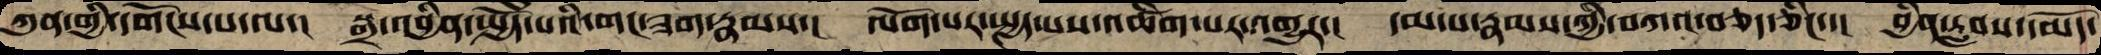ཀུན་གྱི་དགོངས་པ་ལ་།   སྒྲ་འབྱིན་སྤྱོད་པའི་གང་ཟག་རྣམས་།  ལོག་པར་སྤྱད་པས་འཚིག་པར་འགྱུར་།  དམ་པ་རྣམས་ཀྱི་བཀའ་བཅད་ཅིང་་།  བྱིན་རླབས་དམོད་
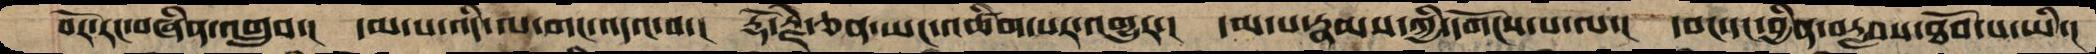བོར་རང་བཞིན་འགྲུབ་།  དམ་པ་འདི་ལ་གང་འདའ་བ་།  རྡོ་རྗེ་ཅན་ཡང་འཚིག་པར་འགྱུར་།  དམ་པ་རྣམས་ཀྱི་དགོངས་པ་ལ་།  དབང་དང་བྱིན་བརླབས་ཐོབ་པ་ཡི་།
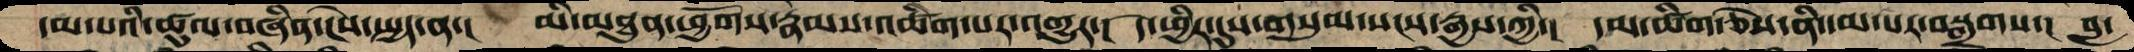དམ་པའི་ཚུལ་བཞིན་ངེས་སྤྱད་ན་།  མི་མཐུན་ཕྱོགས་རྣམས་འཚིག་པར་འགྱུར་།  དེ་ཕྱིར་དུས་གསུམ་སངས་རྒྱས་ཀྱི་།  དམ་ཚིག་ཅེས་ནི་དམ་པར་བསྒྲགས་།  བླ་
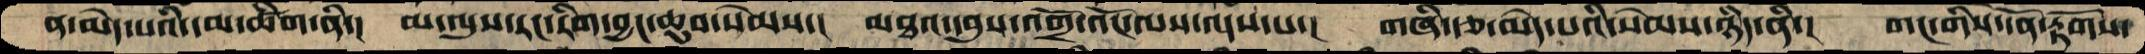ན་མེད་པའི་དམ་ཚིག་ནི་།  མ་ལུས་རང་རིག་བྱང་ཆུབ་སེམས་།  མཐའ་དབུས་འགྲོ་འོང་ལས་འདས་པ་།  གཞི་རྩ་མེད་པའི་སེམས་ཉིད་ནི་།  གང་གིས་དོན་རྟོགས་
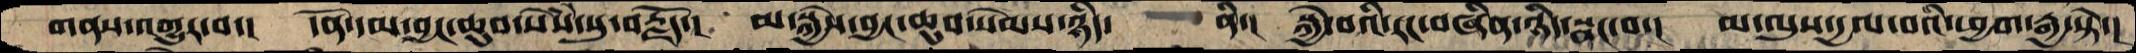གནས་འགྱུར་བ་།  དོན་དམ་བྱང་ཆུབ་སེཾས་སུ་བརྗོད་།  མ་སྐྱེས་བྱང་ཆུབ་སེམས་ཉིད་  ནི་།  སྐྱེ་བའི་རང་བཞིན་ཉིད་སྣང་བ་།  མ་ལུས་དྱལ་བའི་ཕྱག་རྒྱ་སྟེ་།
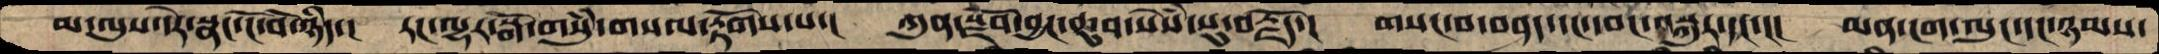མ་ལུས་དེར་སྣང་ངོ་བོ་ཉིད་།  རང་ལྷར་སྒོ་གསུཾ་གསལ་རྟོགས་པ་།  ཀུན་སྫོབ་བྱང་ཆུབ་སེཾས་སུ་བརྗོད་།  གསང་བ་བཤད་དང་དབང་བསྐུར་དང་་།  མན་ངག་ལུང་དང་ཉམས་
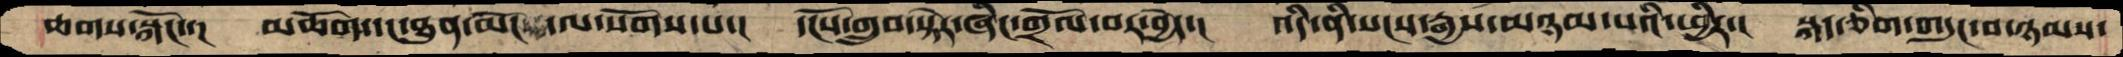ཆགས་སྐོང་་།  མཆོག་དང་ཐུན་མོང་ལ་སོགས་པ་།  དངོས་གྲུབ་སྟེར་ཞིང་གྲོལ་བར་བྱེད་།  འདི་ནི་སངས་རྒྱས་མཉམ་པའི་ཕྱིར་།  སྐད་ཅིག་གདུང་བ་ཉམས་
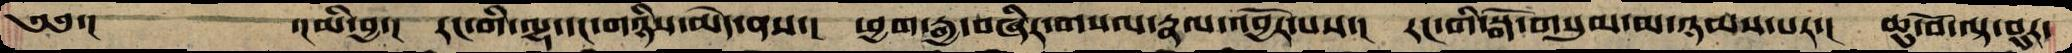༄༅་།        ་།མི་བྱ་།  རང་གི་ལྷ་དང་གཉིས་མེད་ནས་།  ཕྱག་རྒྱ་བཞིར་གསལ་རྣལ་འབྱོར་པས་།  རང་གི་སྒོ་གསུམ་མ་ཉམས་པར་།  ཆུ་བོ་ལྟ་བུར་
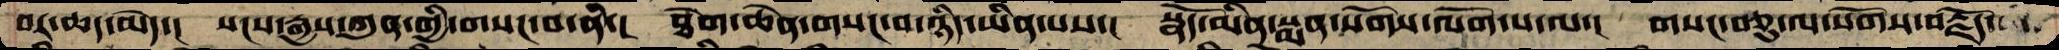བར་ཆད་མེད་།  སངས་རྒྱས་ཀུན་གྱི་གསང་བ་ནི་།  ཐེག་ཆེན་གསང་བ་ཉིད་ཡིན་པས་།  སྣོད་མིན་སྨན་སོགས་ལོག་པ་ལ་།  གསང་བཅུ་ལ་སོགས་བརྗོད་
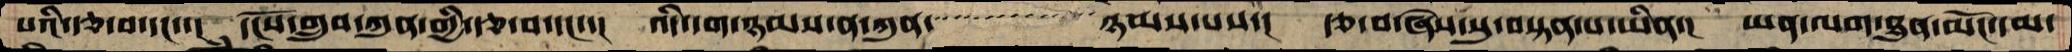པའི་རྩ་བ་དང་་།   དངོས་གྲུབ་ཀུན་གྱི་རྩ་བ་དང་་།  འདི་དག་ཉམས་ན་ཀུན་་་་་་་་་་་་་་ཉམས་པས་།  རྩ་བ་ཞེས་སུ་བསྟན་པ་ཡིན་།  ཡན་ལག་ཐུན་མོང་དམ་
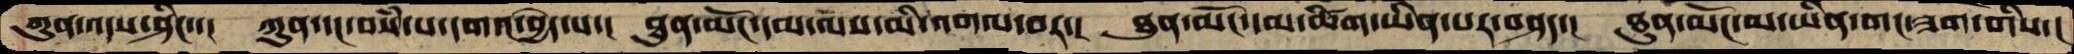ཀུན་འདས་ཤིང་་།  ཀུན་དང་བསཾ་པ་དགའ་བྱེད་པ་།  ཐུན་མོང་དམ་ལས་མི་འགལ་བར་།  ཐུན་མོང་དམ་ཚིག་ཡིན་པར་བཤད་།  ཐུན་མོང་མ་ཡིན་གང་ཟག་གིས་།
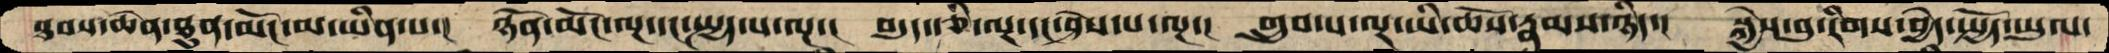ཐབས་ཆེན་ཐུན་མོང་མ་ཡིན་པ་།  ཉོན་མོང་ལྔ་དང་སྤྱད་པ་ལྔ་།  བདུད་རྩི་ལྔ་དང་ཤེས་པ་ལྔ་།  གྲུབ་པ་ལྔ་ཡི་ཆོས་རྣམས་ཉིད་།  སྐྱེས་བུ་རིགས་བྱེད་སྤྱོད་ཡུལ་
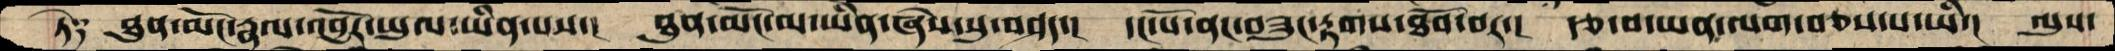ཏེ༑   ཐུན་མོང་རྣལ་འབྱོར་ཡུལ་ཡིན་པས་།  ཐུན་མོང་མ་ཡིན་ཞེས་སུ་བཤད་།  དང་པོ་ནང་བཟུང་རྟགས་ཐོབ་བར་།  རྩ་བ་ཡན་ལག་བཅས་པ་ཡི་།  ལུས་
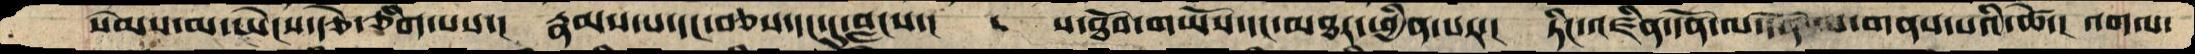སེམས་མ་ཡེངས་རྩེ་ཅིག་པས་།   རྣམས་པ་དང་བཅས་དང་དུ་བླངས་།  ས་ཐོབ་གཡོས་དང་མཐར་ཕྱིན་པར་།  ཏིང་འཛིན་དོན་ལ་གནས་པའི་ཚེ་།  འགལ་
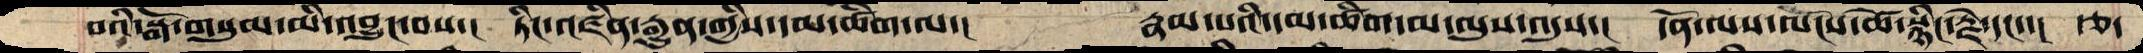བའི་སྒོ་གསུམ་མི་འབྱུང་བས་།  ཏིང་འཛིན་རྒྱུན་གྱིས་དམ་ཚིག་ལ་།     རྣམ་པའི་དམ་ཚིག་མ་ལུས་འདུས་།  དོན་ལས་ལོངས་ཚེ་སྙིང་རྗེ་དང་་།  རྩ་
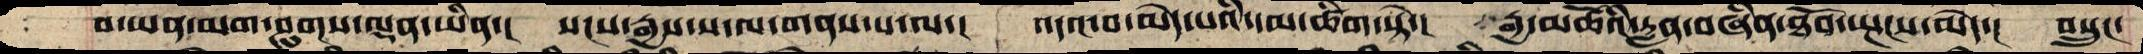བ་ཡན་མག་ཤུགས་ལྡན་ཡིན་།  སངས་རྒྱས་ས་ལ་གནས་པ་ལ་།  འདའ་བ་མེད་པའི་དམ་ཚིག་སྟེ་།  རྒྱ་མཚོའི་རླན་བཞིན་ཐོབ་སྤངས་མེད་།  བསྲུང་
